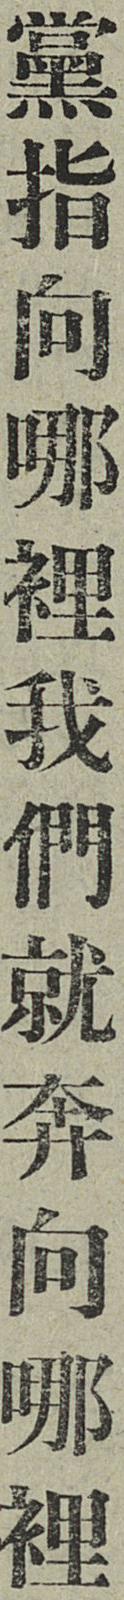黨指向哪裡我們就奔向哪裡
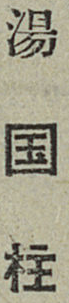湯国柱
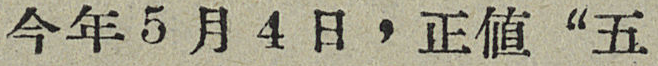今年5月4日，正值“五
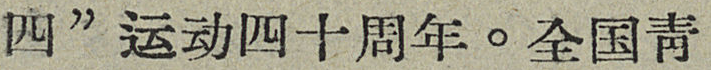四”运动四十周年。全国靑
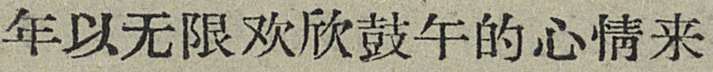年以无限欢欣鼓午的心情来
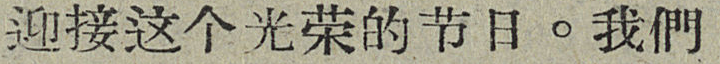迎接这个光荣的节日。我們
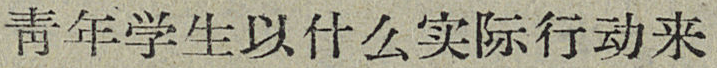靑年学生以什么实际行动来
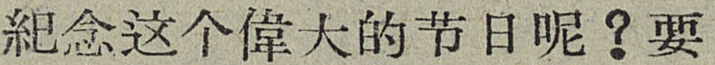紀念这个偉大的节日呢？要
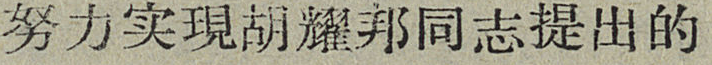努力实現胡耀邦同志提出的
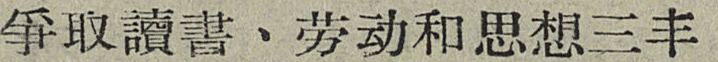爭取讀書、劳动和思想三丰
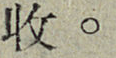收。
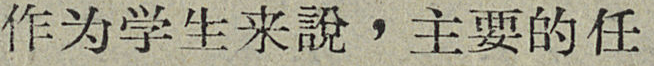作为学生來說，主要的任
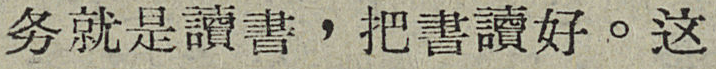务就是讀書，把書讀好。这
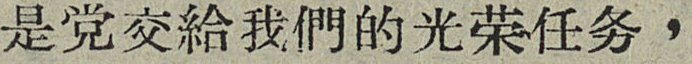是党交給我們的光荣任务，
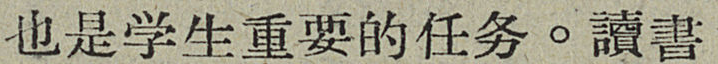也是学生重要的任务。讀書
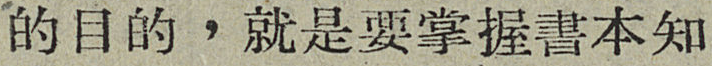的目的，就是要掌握書本知
